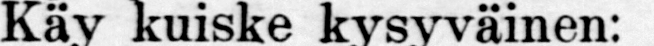Viel' onko polvi nykyinen
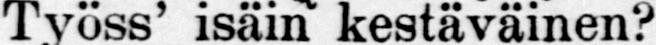Työss isäin kestäväinen?
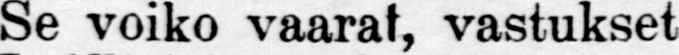Se voiko vaarat, vastukset
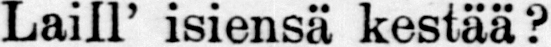Laill' isiensä kestää ?
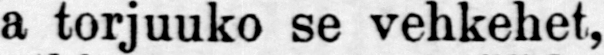ja torkunko se vehkehet,
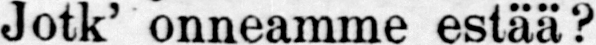Jotk' onneamme estää?
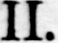II.
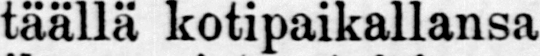Nyt täällä kotipaikallansa
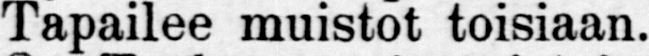Tapailee muistot toisiaan.
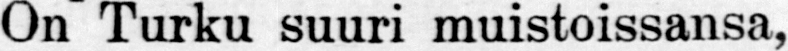On Turku suuri muistoissansa,
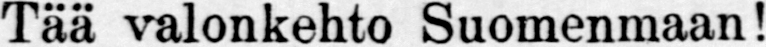"Tää valonkehto Suomenmaan!
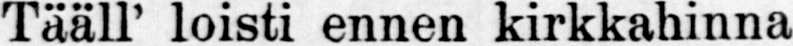Tääll' loisti ennen kirkkahinna
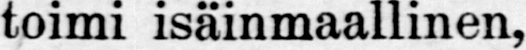Työ toimi isäinmaallinen,
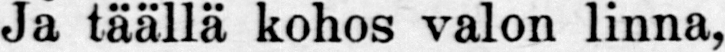ja täällä kohos valon linna,
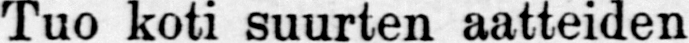Tuo koti suurten aatteiden
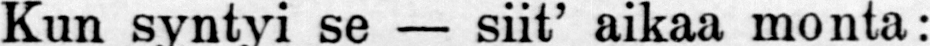Kun syntyi se - siit' aikaa monta:
